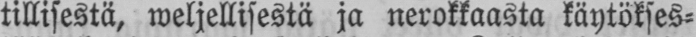tillisestä, weljellisestä ja nerokkaasta käytökses-
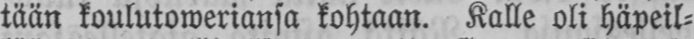tään koulutoweriansa kohtaan. Kalle oli häpeil-
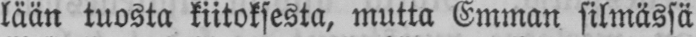lään tuosta kiitoksesta, mutta Emman silmässä
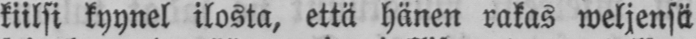kiilsi kyynel ilosta, että hänen rakas weljensä
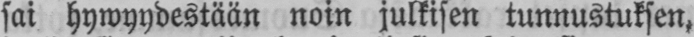sai hywyydestään noin julkisen tunnustuksen,
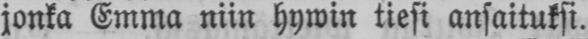jonka Emma niin hywin tiesi ansaituksi.
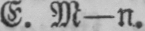E.M-n.
